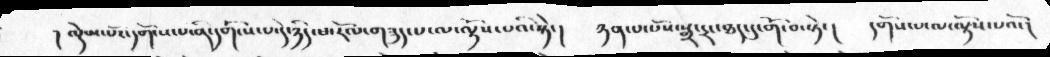། ལྡེམ་པོར་དགོངས་པ་ནི་དགོངས་པ་དེ་ཉིད་ཕ་རོལ་གཟུད་པ་ལ་ལྟོས་པའི་སྟེ་།  ཉན་པ་པོས་སྒྲ་དྲང་ཐད་དུ་གོ་བ་སྟེ་།  དགོས་པ་ལ་ལྟོས་པའོ་།
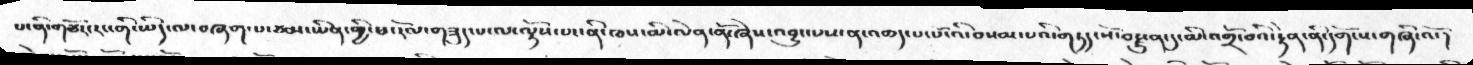པ་ནི་གཙོར་རང་གི་ཡིད་ལ་བཞག་པ་ཙམ་ཡིན་གྱི་ཕ་རོལ་གཟུད་པ་ལ་ལྟོས་པ་ནི་ཁས་མི་ལེན་ནོ་ཞེས་འབྱུང་པས་ན་འཆད་པ་པོ་འི་བསམ་པའི་གཏད་པོ་བརྫུན་དུ་མི་འགྲོ་བའི་རྟེན་ནི་དགོངས་གཞི་འོ་།
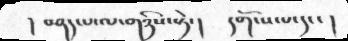།  བཤད་པ་ལ་གཉིས་སྟེ་།      དགོངས་པ་དང་།
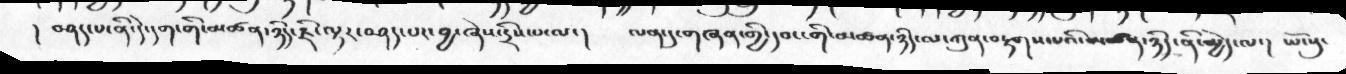།  བཤད་པ་ནི་དེ་དག་གི་མཚན་ཉིད་ཇི་ཉིད་ཇི་ལྟར་བཤད་པར་བྱ་ཞེས་དྲིས་པ་ལ་།   ལན་དུ་གཞན་གྱི་དབང་གི་མཚན་ཉིད་ལ་ཀུན་བརྟགས་པའི་མཚན་ཉིད་ནི་མྱེད་ལ་།   ཡོངསུ་
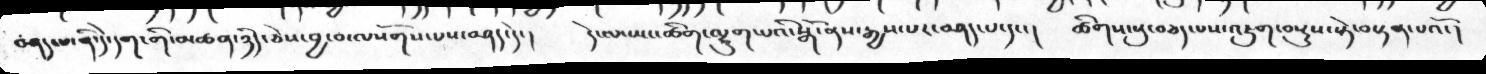བཤད་པ་ནི་དེ་དག་གི་མཚན་ཉིད་ཅེས་བྱ་བ་ལསོགས་པས་བཤད་དེ་།  དེ་ལ་ཡང་ཚིག་ལྷུག་པའི་སྒོ་ནས་རྒྱས་པར་བཤད་པ་དང་།   ཚིགས་སུ་བཅད་པས་འཇུག་བསྡུས་སྟེ་བསྟན་པའོ་།
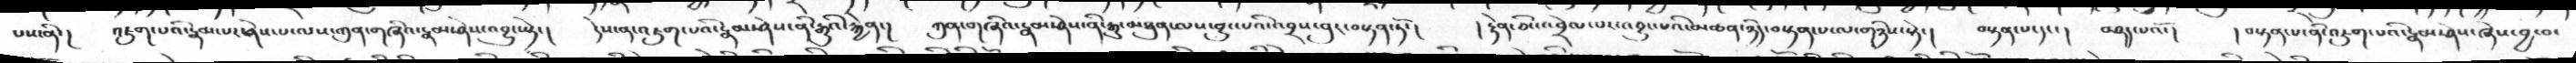པས་ནི་།  འཇུག་པའི་རྣམ་པར་ཤེས་པ་ལས་ཀུན་གཞིའ་རྣམ་ཤེས་འབྱུང་སྟེ་།  དེས་ན་འཇུག་པའི་རྣམ་ཤེས་ནི་རྒྱུའི་རྐྱེན་།  ཀུན་གཞིའ་རྣམ་ཤེས་ནི་རྒྱུ་མཐུན་ལས་བྱུང་པའི་འབྲས་བུར་བསྟན་ཏོ་།  །རྟེན་ཅིང་འབྲེལ་པར་འབྱུང་པའི་མཚན་ཉིད་བསྟན་པ་ལ་གཉིས་སྟེ་།  བསྟན་པ་དང་།  བཤད་པའོ་།   །བསྟན་པ་ནི་འཇུག་པའི་རྣམ་ཤེས་ཞེས་བྱ་བ་
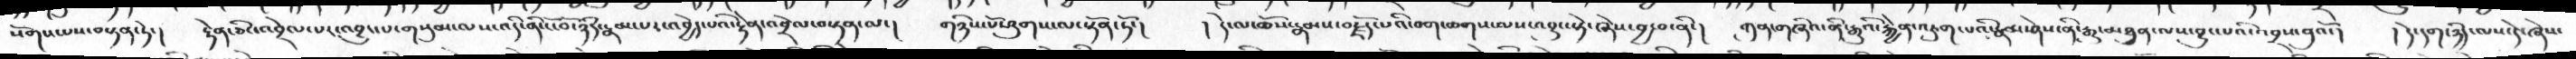སོགས་པས་བསྟན་ཏེ་།  རྟེན་ཅིང་འབྲེལ་པར་འབྱུང་པ་གསུམ་ལས་འདི་ནི་ངོ་བོ་ཉིད་རྣམ་པར་འབྱེད་པའི་རྟེན་འབྲེལ་བསྟན་ལ་།  གཉིས་པོ་ཤུགས་ལ་སྟོན་ཏོ་།  ། དེ་ལ་ཆོས་རྣམ་བརྗོད་པའི་བག་ཆགས་ལས་འབྱུང་སྟེ་ཞེས་བྱ་བ་ནི་།  ཀུན་གཞིའ་ནི་རྒྱུའི་རྐྱེན་འཇུག་པའི་རྣམ་ཤེས་ནི་རྒྱུ་མཐུན་ལས་བྱུང་པའི་འབྲས་བུའོ་།   ། དེ་དག་ཉིད་ལས་དེ་ཞེས་
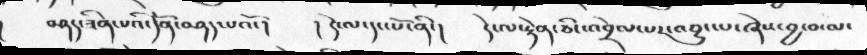བཤད་ཟིན་པའི་དོན་བཤད་པའོ་།  །དེ་ལ་དང་པོ་ནི་།   དེ་ལ་རྟེན་ཅིང་འབྲེལ་པར་འབྱུང་པ་ཞེས་བྱ་བ་ལ་
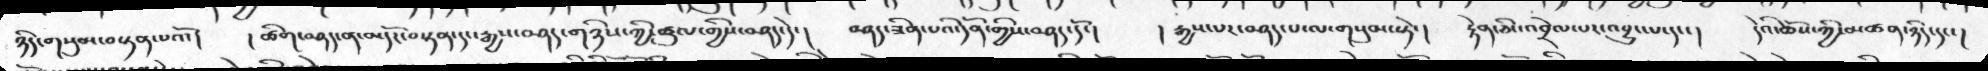ཉིད་གསུམ་བསྟན་པའོ་།   །ཚིག་བཤད་ན་མདོར་བསྟན་དང་རྒྱས་བཤད་གཉིས་ཀྱི་ཚུལ་གྱིས་བཤད་དེ་།  བཤད་ཟིན་པའི་དོན་གྱིས་བཤད་དོ་།  ། རྒྱས་པར་བཤད་པ་ལ་གསུམ་སྟེ་།  རྟེན་ཅིང་འབྲེལ་པར་འབྱུང་པ་དང་།  དེའི་ཆོས་ཀྱི་མཚན་ཉིད་དང་།
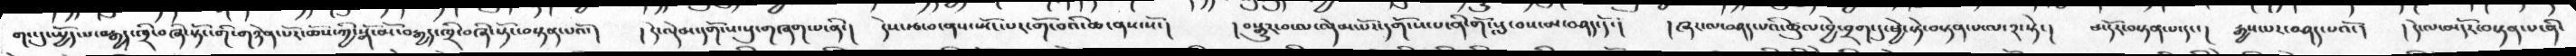གང་དུ་སྤྱོད་པ་བརྒྱད་ཁྲི་བཞི་སྟོང་གི་གཉེན་པོར་ཆོས་ཀྱི་སྒོ་མོ་བརྒྱད་ཁྲི་བཞི་སྟོང་བསྟན་པའོ་།   ། དེ་ལྡེམ་དགོངས་སུ་གཞག་པ་ནི་།   དེས་རྩ་བ་ནས་སྤོང་པར་གོ་བའི་ཆ་ནས་སོ་།   ། བསྒྱུར་བ་ལ་ལྡེམ་པོར་དགོངས་པ་ནི་གོ་སླ་བས་མ་བཤད་དོ་།   ། ཞར་ལ་མ་བཤད་པའི་ཚུལ་བྱེ་བྲག་དུ་ཕྱེ་སྟེ་བསྟན་པ་ལ་༢་སྟེ་།  མདོར་བསྟན་པ་དང་།   རྒྱས་པར་བཤད་པའོ་།   །དེ་ལ་མདོར་བསྟན་པ་ནི་
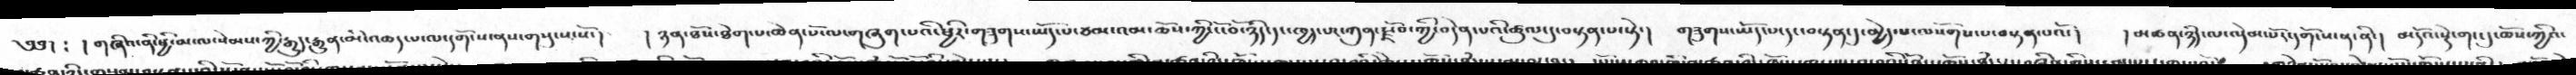༄༅།  ༴  །  གཞིའ་ནི་ཕྱི་མ་ལ་སེམས་ཀྱི་རྒྱུད་རྒྱུན་མི་འཆད་པ་ལ་དགོངས་ནས་གསུངས་སོ་།   ། ཉན་ཐོས་ཐེག་པ་ཆེན་པོ་ལ་གཞུག་པའི་ཕྱིར་གཟུགས་ཡོད་པ་ཙམ་འམ་ཆོས་ཀྱི་ངོ་བོ་ཉིད་དང་ཁྱད་པར་ཀུན་རྫོབ་ཀྱི་བདེན་པའི་ཚུལ་དུ་བསྟན་པ་སྟེ་།    གཟུགས་ཡོད་པ་དང་བསྟན་དུ་མྱེད་པ་ལསོགས་པ་བསྟན་པའོ་།   ། མཚན་ཉིད་ལ་ལྡེམ་པོར་དགོངས་ན་ནི་།  མདོའ་སྡེ་གང་དུ་ཆོས་ཀྱིའ་
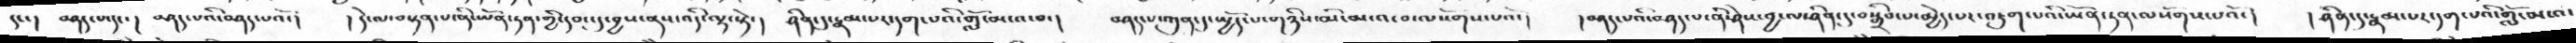དང་།   བཤད་པ་དང་།   བཤད་པའི་བཤད་པའོ་།   ། དེ་ལ་བསྟན་པ་ནི་ཡོན་ཏན་གྱི་དབང་དུ་བྱས་ནས་འདི་ལྟ་སྟེ་།   ཤིན་དུ་རྣམ་པར་དག་པའི་གློ་མངའ་བ་།   བཤད་པ་ཀུན་དུ་སྤྱོད་པ་གཉིས་མི་མངའ་བ་ལསོགས་པའོ་།    ། བཤད་པའི་བཤད་པ་ནི་ཤེས་བྱ་ལ་ཤིན་དུ་བསྒྲིབ་པ་མྱེད་པར་འཇུག་པའི་ཡོན་ཏན་ལསོགས་པའོ་།     ། ཤིན་ཏུ་རྣམ་པར་དག་པའི་གློ་མངའ་
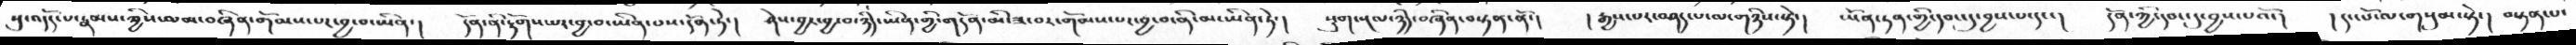སུ་འདོད་པ་རྣམས་ཀྱིས་ལམ་བཞིན་གོམས་པར་བྱ་བ་ཡིན་།   དོན་ནི་རྟོགས་པར་བྱ་བ་ཡིན་པས་དོན་ཏེ་།   ཤེས་བྱར་བྱ་བ་ཉིད་ཡིན་གྱི་གདོན་མི་ཟ་བར་གོམས་པར་བྱ་བ་ནི་མ་ཡིན་ཏེ་།   སྡུག་སྔལ་ཉིད་བཞིན་བསྟན་ནོ་།   ། རྒྱས་པར་བཤད་པ་ལ་གཉིས་སྟེ་།   ཡོན་ཏན་གྱི་དབང་དུ་བྱས་པ་དང་།  དོན་ཀྱི་དབང་དུ་བྱས་པའོ་།   ། དང་པོ་ལ་གསུམ་སྟེ་།  བསྟན་པ་
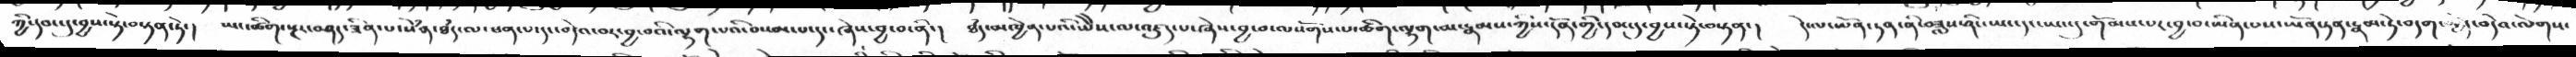ཀྱི་དབང་དུ་བྱས་སྟེ་བསྟན་ཏེ་།    ཡང་ཚིག་སྔར་བཤད་ཟིན་པ་སེཾན་ཐཾད་ལ་ཕན་པ་དང་བདེའ་བར་བྱ་བའི་ལྷག་པའི་བསམ་པ་དང་ཞེས་བྱ་བ་ནི་།   ཐཾད་མཁྱེན་པའི་ཡཻས་ལ་འཛུད་པ་ཞེས་བྱ་བ་ལསོགས་པ་ཚིག་ལྷག་མ་རྣམས་ཀྱིས་དོན་གྱི་དབང་དུ་བྱས་སྟེ་བསྟན་།    དེ་ལ་ཡོན་ཏན་ནི་བཟླས་ཤིང་ཡང་དང་ཡང་དུ་གོམས་པར་བྱ་བ་ཡིན་པས་ཡོན་ཏན་རྣམ་ཏེ་བདག་   ད་བདེའ་ལེགས་
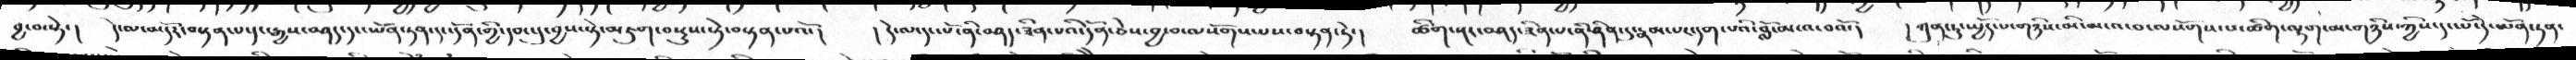བྱ་བ་སྟེ་།  དེ་ལ་མདོར་བསྟན་པ་དང་རྒྱས་བཤད་དང་ཡོན་ཏན་དང་དོན་གྱི་དབང་དུ་བྱས་སྟེ་མཇུག་བསྡུས་སྟེ་བསྟན་པའོ་།  ། དེ་ལ་དང་པོ་ནི་བཤད་ཟིན་པའི་དོན་ཅེས་བྱ་བ་ལསོགས་པས་བསྟན་ཏེ་།  ཚིག་སྔར་བཤད་ཟིན་པ་ནི་ཤིན་དུ་རྣམ་པར་དག་པའི་བློ་མངས་བའོ་།  ། ཀུན་དུ་སྤྱོད་པ་གཉིས་མི་མངའ་བ་ལསོགས་པ་ཚིག་ལྷག་མ་གཉིས་ཀྱིས་དང་པོ་དེ་ཡོན་ཏན་
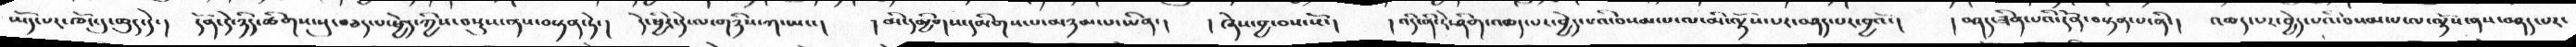ཡོད་པར་ཁོང་དུ་ཆུད་དེ་།  དོན་དེ་ཉིད་ཚིགས་སུ་བཅད་པ་ཕྱེད་ཀྱིས་བསྡུས་ནས་བསྟན་ཏེ་།  དེ་ཕྱིར་དེ་ལ་གཉིས་ཀ་ཡང་།  །མི་དམྱིགས་དམིགས་པ་མཉམ་པ་ཡིན་།  །ཞེས་བྱ་བས་སོ་།  ། འདི་ནི་རེ་ཤིག་འཆད་པར་བྱེད་པའི་བསམ་པ་ལ་མི་ལྟོས་པར་བཤད་པར་བྱའོ་།  །བཤད་ཟིན་པའི་དོན་བསྟན་པ་ནི་།  འཆད་པར་བྱེད་པའི་བསམ་པ་ལ་ལྟོས་ནས་བཤད་པར་
